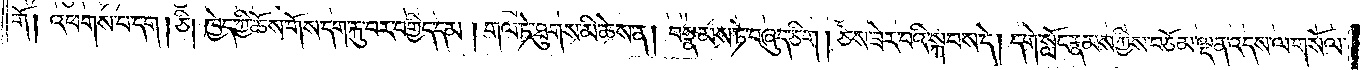གོ༑ འཕགས་པ་དག །ཅི། ཁྱེད་ཀྱི་ཆོས་གོས་དག་རྐུ་བར་བགྱིད་དམ། གལ་ཏེ་ཐུགས་མི་ཆེས་ན། བསྣམས་ཏེ་བཞུད་ཅིག །ཅེས་ཟེར་བའི་སྐབས་དེ། དགེ་སློང་རྣམས་ཀྱིས་བཅོམ་ལྡན་འདས་ལ་གསོལ་
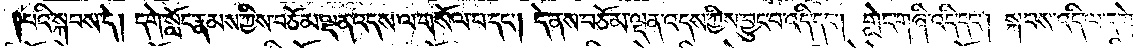པའི་སྐབས་དེ། དགེ་སློང་རྣམས་ཀྱིས་བཅོམ་ལྡན་འདས་ལ་གསོལ་པ་དང༌། དེ་ནས་བཅོམ་ལྡན་འདས་ཀྱིས་བྱུང་བ་འདི་དང༌། གླེང་གཞི་འདི་དང༌། སྐབས་འདི་ལ་དགེ་སློང་གི་
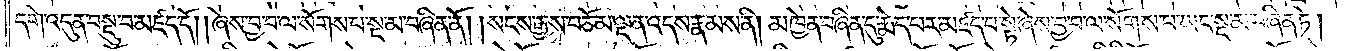དགེ་འདུན་བསྡུ་བ་མཛད་དོ། །ཞེས་བྱ་བ་ལ་སོགས་པ་སྔ་མ་བཞིན་ནོ། །སངས་རྒྱས་བཅོམ་ལྡན་འདས་རྣམས་ནི། མཁྱེན་བཞིན་དུ་རྨེད་པར་མཛད་པ་སྟེ་ཞེས་བྱ་བ་ལ་སོགས་པ་ཡང་སྔ་མ་བཞིན་ཏེ།
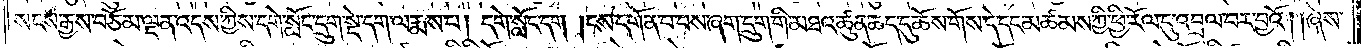སངས་རྒྱས་བཅོམ་ལྡན་འདས་ཀྱིས་དགེ་སློང་དྲུག་སྡེ་དག་ལ་རྨས་པ། དགེ་སློང་དག །ངས་དགོན་པ་བས་ཞག་དྲུག་གི་མཐའ་ཚུན་ཆད་དུ་ཆོས་གོས་དེ་དང་མཚམས་ཀྱི་ཕྱི་རོལ་དུ་འབྲལ་བར་བྱའོ། །ཞེས་
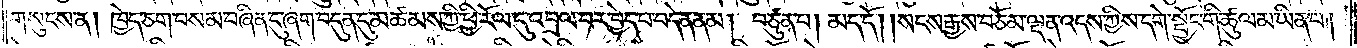གསུངས་ན། ཁྱེད་ཅག་བསམ་བཞིན་དུ་ཞག་བདུན་དུ་མཚམས་ཀྱི་ཕྱི་རོལ་དུ་འབྲལ་བར་བྱེད་པ་བདེན་ནམ། བཙུན་པ། མད་དོ། །སངས་རྒྱས་བཅོམ་ལྡན་འདས་ཀྱིས་དགེ་སྦྱོང་གི་ཚུལ་མ་ཡིན་པ།
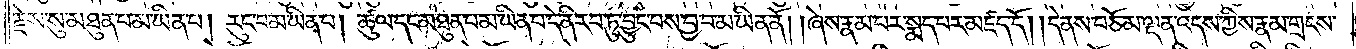རྗེས་སུ་མཐུན་པ་མ་ཡིན་པ། རུང་བ་མ་ཡིན་པ། ཚུལ་དང་མཐུན་པ་མ་ཡིན་པ་དེ་ནི་རབ་ཏུ་བྱུང་བས་བྱ་བ་མ་ཡིན་ནོ། །ཞེས་རྣམ་པར་སྨད་པར་མཛད་དོ། །དེ་ནས་བཅོམ་ལྡན་འདས་ཀྱིས་རྣམ་གྲངས་
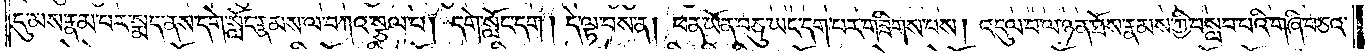དུ་མས་རྣམ་པར་སྨད་ནས་དགེ་སློང་རྣམས་ལ་བཀའ་སྩལ་པ། དགེ་སློང་དག། དེ་ལྟ་བས་ན། ཕན་ཡོན་བཅུ་ཡང་དག་པར་གཟིགས་པས། འདུལ་བ་ལ་ཉན་ཐོས་རྣམས་ཀྱི་བསླབ་པའི་གཞི་བཅའ་
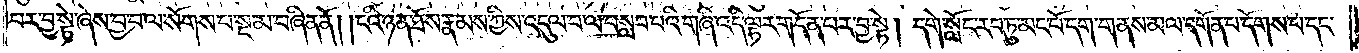བར་བྱ་སྟེ་ཞེས་བྱ་བ་ལ་སོགས་པ་སྔ་མ་བཞིན་ནོ། །ངའི་ཉན་ཐོས་རྣམས་ཀྱིས་འདུལ་བ་ལ་བསླབ་པའི་གཞི་འདི་ལྟར་གདོན་པར་བྱ་སྟེ། དགེ་སློང་རབ་ཏུ་མང་པོ་དག་གནས་མལ་དགོན་པ་དོགས་པ་དང་
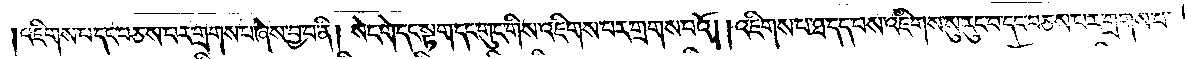འཇིགས་པ་དང་བཅས་པར་གྲགས་པ་ཞེས་བྱ་བ་ནི། སེང་གེ་དང་སྟག་དང་གུང་གིས་འཇིགས་པར་གྲགས་པའོ། །འཇིགས་པ་ཐ་དད་པས་འཇིགས་སུ་རུང་བ་དང་བཅས་པར་གྲགས་པ་
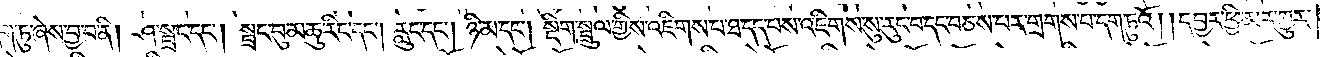དག་ཏུ་ཞེས་བྱ་བ་ནི། ཤ་སྦྲང་དང༌། སྦྲང་བུ་མཆུ་རིང་དང༌། རླུང་དང༌། ཉི་མ་དང༌། སྡིག་སྦྲུལ་གྱིས་འཇིགས་པ་ཐ་དད་པས་འཇིགས་སུ་རུང་བ་དང་བཅས་པར་གྲགས་པ་དག་ཏུའོ། །དབྱར་ཕྱི་མར་གྱུར་
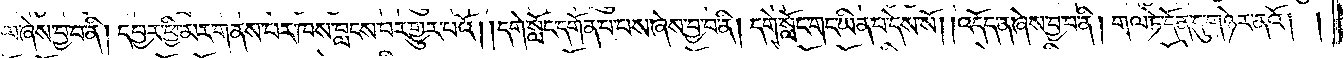ལ་ཞེས་བྱ་བ་ནི། དབྱར་ཕྱི་མར་གནས་པར་ཁས་བླངས་པར་གྱུར་པའོ། །དགེ་སློང་དགོན་པ་བས་ཞེས་བྱ་བ་ནི། དགེ་སློང་གང་ཡིན་པ་དེས་སོ། །འདོད་ན་ཞེས་བྱ་བ་ནི། གལ་ཏེ་དོན་དུ་གཉེར་ནའོ། །
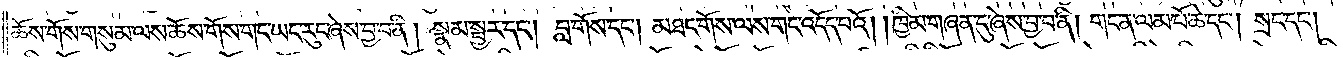ཆོས་གོས་གསུམ་ལས་ཆོས་གོས་གང་ཡང་རུང་ཞེས་བྱ་བ་ནི། སྣམ་སྦྱར་དང༌། བླ་གོས་དང༌། མཐང་གོས་ལས་གང་འདོད་པའོ། །ཁྱིམ་གཞན་དུ་ཞེས་བྱ་བ་ནི། གང་ན་ལམ་པོ་ཆེ་དང༌། སྲང་དང༌།
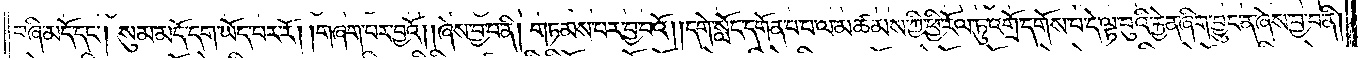བཞི་མདོ་དང༌། སུམ་མདོ་དག་ཡོད་པར་རོ། །གཞག་པར་བྱའོ། །ཞེས་བྱ་བ་ནི། གཏམས་པར་བྱ་བའོ། །དགེ་སློང་དགོན་པ་པ་ལ་མཚམས་ཀྱི་ཕྱི་རོལ་ཏུ་འགྲོ་དགོས་པ་དེ་ལྟ་བུའི་རྐྱེན་ཞིག་བྱུང་ན་ཞེས་བྱ་བ་ནི།
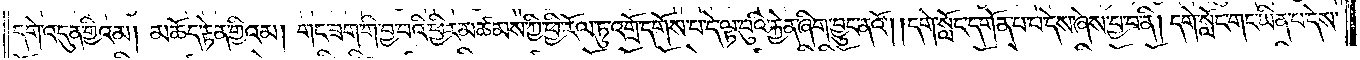དགེ་འདུན་གྱིའམ། མཆོད་རྟེན་གྱིའམ། གང་ཟག་གི་བྱ་བའི་ཕྱིར་མཚམས་ཀྱི་ཕྱི་རོལ་ཏུ་འགྲོ་དགོས་པ་དེ་ལྟ་བུའི་རྐྱེན་ཞིག་བྱུང་ནའོ། །དགེ་སློང་དགོན་པ་པ་དེས་ཞེས་བྱ་བ་ནི། དགེ་སློང་གང་ཡིན་པ་དེས་
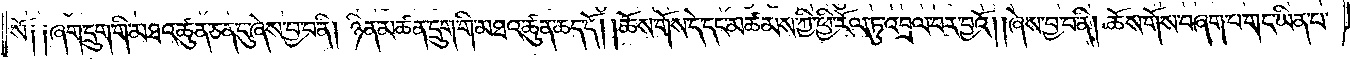སོ༑ ༑ཞག་དྲུག་གི་མཐའ་ཚུན་ཅན་དུ་ཞེས་བྱ་བ་ནི། ཉིན་མཚན་དྲུག་གི་མཐའ་ཚུན་ཆད་དོ། །ཆོས་གོས་དེ་དང་མཚམས་ཀྱི་ཕྱི་རོལ་ཏུ་འབྲལ་བར་བྱའོ། །ཞེས་བྱ་བ་ནི། ཆོས་གོས་བཞག་པ་གང་ཡིན་པ་
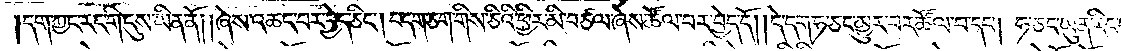དག་ཀྱང་རང་གི་དུས་ཡིན་ནོ། །ཞེས་འཆང་བར་བྱེད་ཅིང༌། བདག་ཅག་གིས་ཅིའི་ཕྱིར་མི་བཙལ་ཞེས་ཚོལ་བར་བྱེད་དོ། །དེ་དག་ཧ་ཅང་མྱུར་བར་ཚོལ་བ་དང༌། ཧ་ཅང་ཡུན་རིང་
